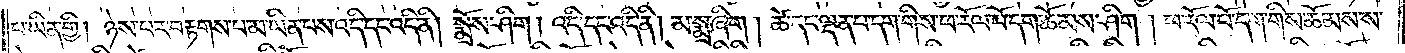པ་ཡིན་གྱི། ཉེས་པར་བརྟགས་པ་མ་ཡིན་པས་འདི་དང་འདི་ནི། སྨྲོས་ཤིག །འདི་དང་འདི་ནི། མ་སྨྲ་ཞིག། ཚེ་དང་ལྡན་པ་དག་གིས་ཕ་རོལ་པོ་དག་ཆོམས་ཤིག །ཕ་རོལ་པོ་དག་གིས་ཆོམས་ས་
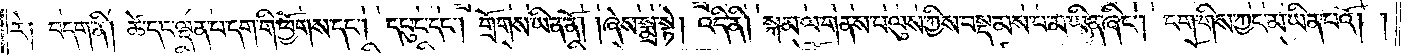རེ། བདག་ནི། ཚེ་དང་ལྡན་པ་དག་གི་ཕྱོགས་དང༌། དཔུང་དང༌། གྲོགས་ཡིན་ནོ། །ཞེས་སྨྲ་སྟེ། འདི་ནི། སྐམ་ལ་གནས་པ་ལུས་ཀྱིས་བསྡམས་པ་མ་ཡིན་ཞིང༌། ངག་གིས་ཀྱང་མ་ཡིན་པའོ། །
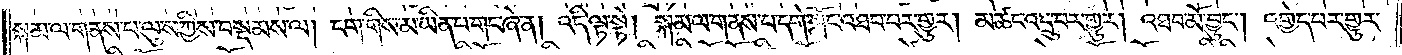སྐམ་ལ་གནས་པ་ལུས་ཀྱིས་བསྡམས་ལ། ངག་གིས་མ་ཡིན་པ་གང་ཞེ་ན། འདི་ལྟ་སྟེ། སྐམ་ལ་གནས་པ་དགེ་སློང་འཐབ་པར་གྱུར། མཚང་འདྲུ་བར་གྱུར། འཐབ་མོ་བྱུང༌། འགྱེད་པར་གྱུར་
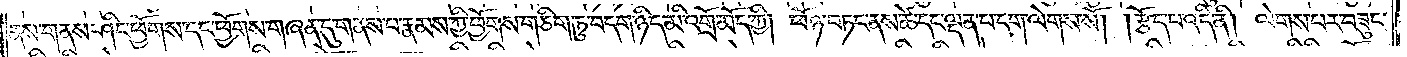ནས་གནས་ཤིང་ཕྱོགས་དང་ཕྱོགས་གཞན་དུ་གནས་པ་རྣམས་ཀྱི་ཕྱོགས་གཅིག་ཏུ་བདག་ཉིད་མི་འགྲོ་མོད་ཀྱི། ཕོ་ཉ་བཏང་ནས་ཚེ་དང་ལྡན་པ་དག་ལེགས་སོ། །རྩོད་པ་འདི་ནི། ལེགས་པར་བཟུང་
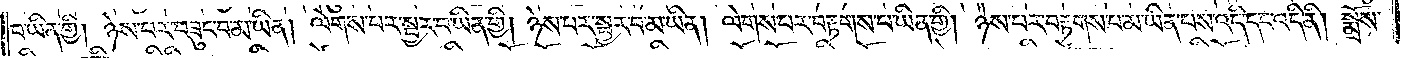བ་ཡིན་གྱི། ཉེས་པར་བཟུང་བ་མ་ཡིན། ལེགས་པར་སྦྱར་བ་ཡིན་གྱི། ཉེས་པར་སྦྱར་བ་མ་ཡིན། ལེགས་པར་བརྟགས་པ་ཡིན་གྱི། ཉེས་པར་བརྟགས་པ་མ་ཡིན་པས་འདི་དང་འདི་ནི། སྨྲོས་
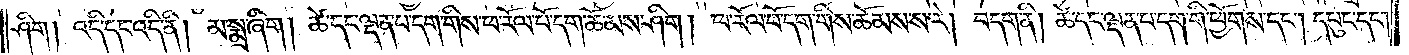ཤིག །འདི་དང་འདི་ནི། མ་སྨྲ་ཞིག །ཚེ་དང་ལྡན་པ་དག་གིས་ཕ་རོལ་པོ་དག་ཆོམས་ཤིག །ཕ་རོལ་པོ་དག་གིས་ཆོམས་ས་རེ། བདག་ནི། ཚེ་དང་ལྡན་པ་དག་གི་ཕྱོགས་དང༌། དཔུང་དང༌།
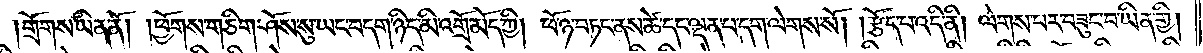གྲོགས་ཡིན་ནོ། །ཕྱོགས་གཅིག་ཤོས་སུ་ཡང་བདག་ཉིད་མི་འགྲོ་མོད་ཀྱི། ཕོ་ཉ་བཏང་ནས་ཚེ་དང་ལྡན་པ་དག་ལེགས་སོ། །རྩོད་པ་འདི་ནི། ལེགས་པར་བཟུང་བ་ཡིན་གྱི། །
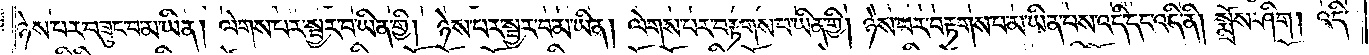ཉེས་པར་བཟུང་བ་མ་ཡིན། ལེགས་པར་སྦྱར་བ་ཡིན་གྱི། ཉེས་པར་སྦྱར་བ་མ་ཡིན། ལེགས་པར་བརྟགས་པ་ཡིན་གྱི། ཉེས་པར་བརྟགས་པ་མ་ཡིན་པས་འདི་དང་འདི་ནི། སྨྲོས་ཤིག །འདི་
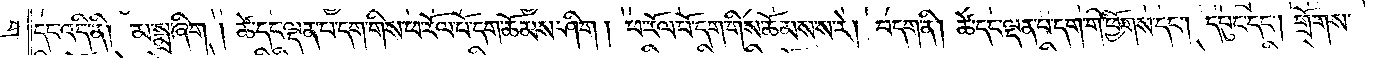དང་འདི་ནི། མ་སྨྲ་ཞིག །ཚེ་དང་ལྡན་པ་དག་གིས་ཕ་རོལ་པོ་དག་ཆོམས་ཤིག །ཕ་རོལ་པོ་དག་གིས་ཆོམས་ས་རེ། བདག་ནི། ཚེ་དང་ལྡན་པ་དག་གི་ཕྱོགས་དང༌། དཔུང་དང༌། གྲོགས་
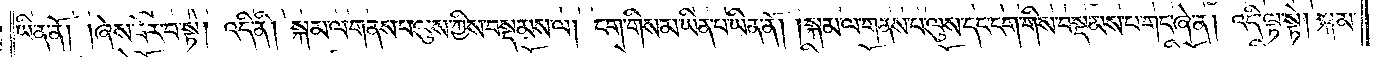ཡིན་ནོ། །ཞེས་ཟེར་བ་སྟེ། འདི་ནི། སྐམ་ལ་གནས་པ་ལུས་ཀྱིས་བསྡམས་ལ། ངག་གིས་མ་ཡིན་པ་ཡིན་ནོ། །སྐམ་ལ་གནས་པ་ལུས་དང་ངག་གིས་བསྡམས་པ་གང་ཞེ་ན། འདི་ལྟ་སྟེ། སྐམ་
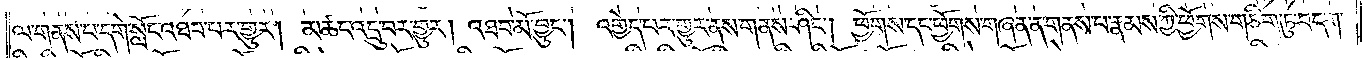ལ་གནས་པ་དགེ་སློང་འཐབ་པར་གྱུར། མཚང་འདྲུ་བར་གྱུར། འཐབ་མོ་བྱུང༌། འགྱེད་པར་གྱུར་ནས་གནས་ཤིང༌། ཕྱོགས་དང་ཕྱོགས་གཞན་ན་གནས་པ་རྣམས་ཀྱི་ཕྱོགས་གཅིག་ཏུ་བདག་
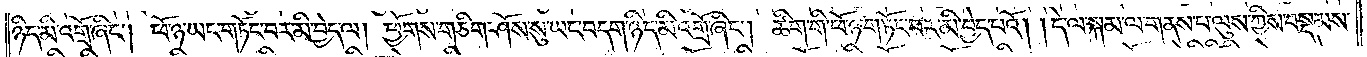ཉིད་མི་འགྲོ་ཞིང༌། ཕོ་ཉ་ཡང་གཏོང་བར་མི་བྱེད་ལ། ཕྱོགས་གཅིག་ཤོས་སུ་ཡང་བདག་ཉིད་མི་འགྲོ་ཞིང༌། ཚིག་གི་ཕོ་ཉ་གཏོང་བར་མི་བྱེད་པའོ། །དེ་ལ་སྐམ་ལ་གནས་པ་ལུས་ཀྱིས་བསྡམས་
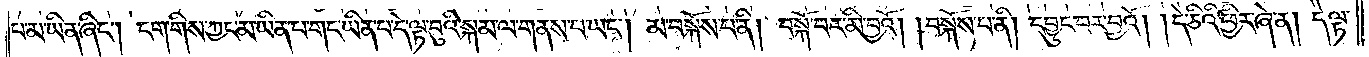པ་མ་ཡིན་ཞིང༌། ངག་གིས་ཀྱང་མ་ཡིན་པ་གང་ཡིན་པ་དེ་ལྟ་བུའི་སྐམ་ལ་གནས་པ་ཡང༌། མ་བསྐོས་པ་ནི། བསྐོ་བར་མི་བྱའོ། །བསྐོས་པ་ནི། དབྱུང་བར་བྱའོ། །དེ་ཅིའི་ཕྱིར་ཞེ་ན། དེ་ལྟ་
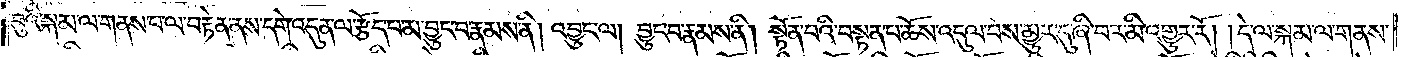བུའི་སྐམ་ལ་གནས་པ་ལ་བརྟེན་ནས་དགེ་འདུན་ལ་རྩོད་པ་མ་བྱུང་བ་རྣམས་ནི། འབྱུང་ལ། བྱུང་བ་རྣམས་ནི། སྟོན་པའི་བསྟན་པ་ཆོས་འདུལ་བས་མྱུར་དུ་ཞི་བར་མི་འགྱུར་རོ། །དེ་ལ་སྐམ་ལ་གནས་
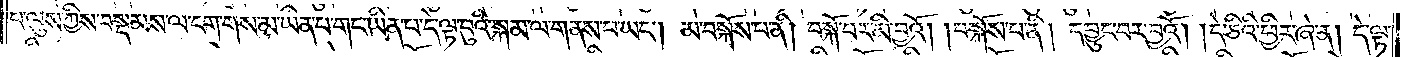པ་ལུས་ཀྱིས་བསྡམས་ལ་ངག་གིས་མ་ཡིན་པ་གང་ཡིན་པ་དེ་ལྟ་བུའི་སྐམ་ལ་གནས་པ་ཡང༌། མ་བསྐོས་པ་ནི། བསྐོ་བར་མི་བྱའོ། བསྐོས་པ་ནི། དབྱུང་བར་བྱའོ། །དེ་ཅིའི་ཕྱིར་ཞེ་ན། དེ་ལྟ་
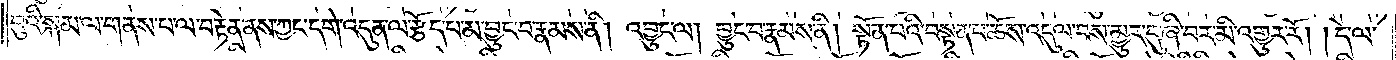བུའི་སྐམ་ལ་གནས་པ་ལ་བརྟེན་ནས་ཀྱང་དགེ་འདུན་ལ་རྩོད་པ་མ་བྱུང་བ་རྣམས་ནི། འབྱུང་ལ། བྱུང་བ་རྣམས་ནི། སྟོན་པའི་བསྟན་པ་ཆོས་འདུལ་བས་མྱུར་དུ་ཞི་བར་མི་འགྱུར་རོ། །དེ་ལ་
